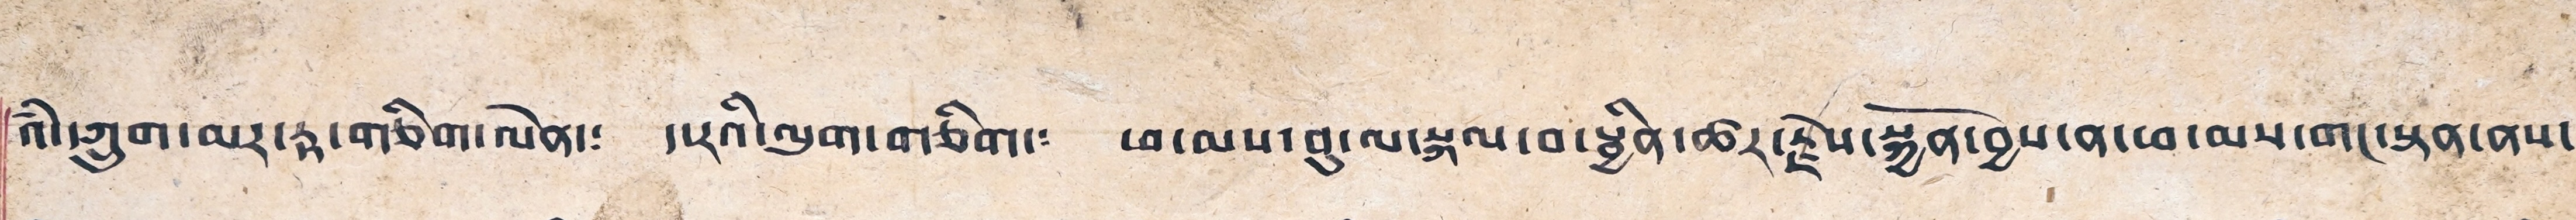འཾ་ཀྲུག་མར་རྟ་གཅིག་ལེན་༴ ད་རའི་ལུག་གཅིག་༴ ཕ་མས་བུ་ལ་སྐལ་བ་སྦྱིན་ཚར་རྗེས་སྐྱོན་བྱས་ན་ཕ་མས་གང་སྟན་ནས་
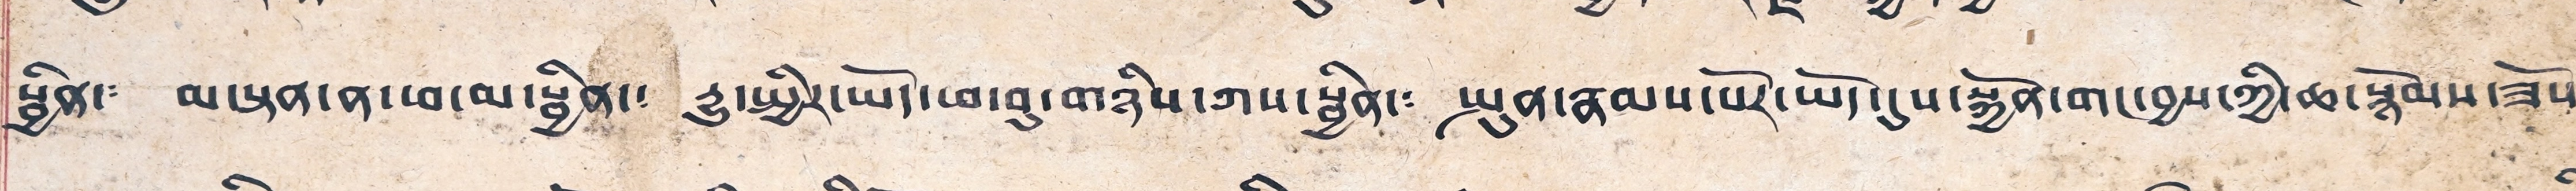སྦྱིན་༴ མ་སྟན་ན་ཕ་མ་སྦྱིན་༴ རྒྱུ་ཕྱིར་ཡོད་ཕ་བུ་གཉིས་ཀས་སྦྱིན་༴ སྤུན་རྣམས་པོར་ཡོད་དུས་སྐྱོན་གང་བྱས་ཀྱི་ཆ་སྙོམས་ཟོས་
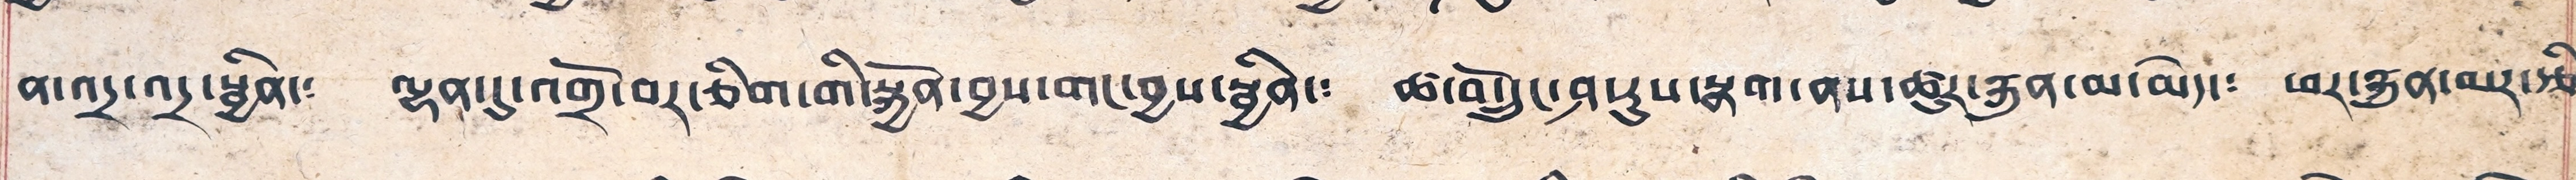ན་འདྲ་འདྲ་སྦྱིན་༴ ལྷན་དུ་འགྲོ་བར་ཅིག་གི་སྐྱོན་བྱས་གང་བྱས་སྦྱིན་༴ ཚ་བོ་དྲུང་ཤ་རུས་སྣག་ནས་ཚུར་རྐུན་མ་མེད་༴ ཕར་རྐུན་མར་རྩི༴
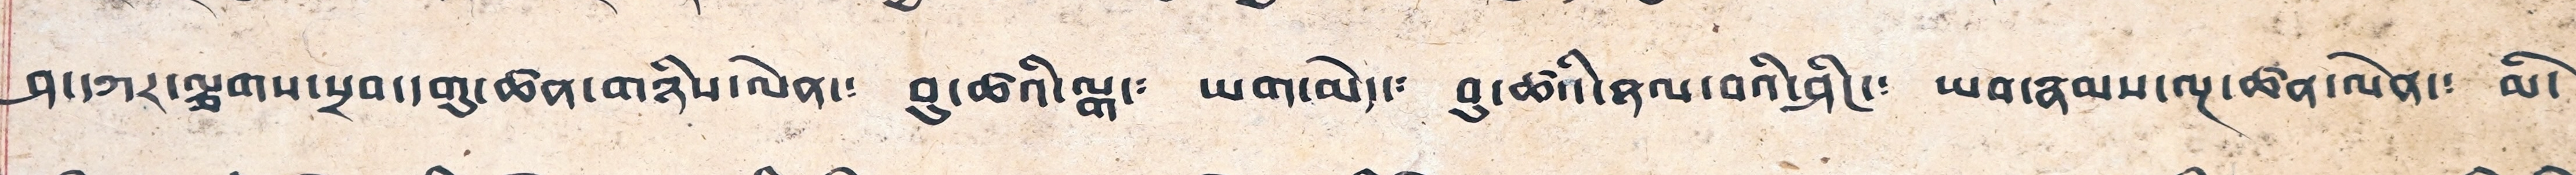ཤ་དཀར་ལྕགས་སྲབ་དགུ་ཚན་གཉིས་ལེན་༴ བུ་ཚའི་ལྒ་༴ ཡག་མེད་༴ བུ་ཚའི་ཉལ་བའི་ཤིང་༴ ཡབ་རྣམས་ལྔ་ཚན་ལེན་༴ མི་
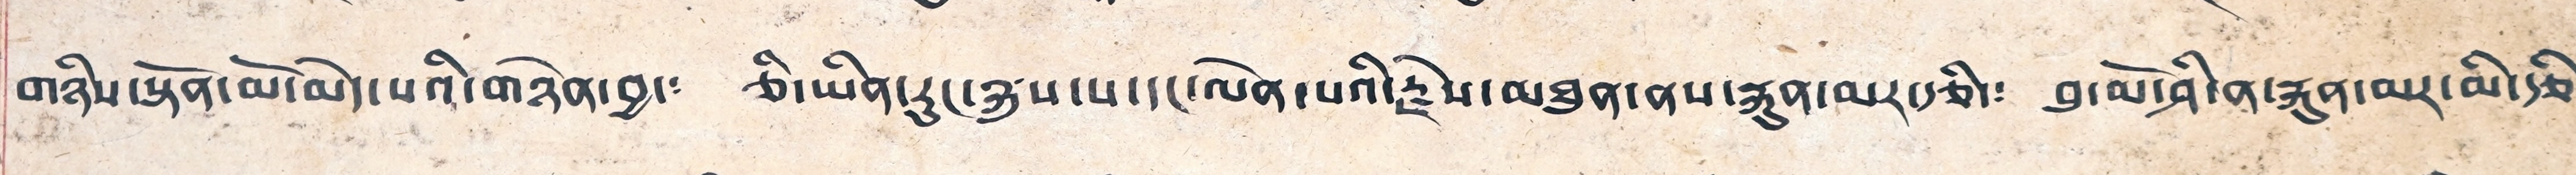གཉིས་སྟོན་མོ་མེད་པའི་གཉེན་བྱ་༴ ཅི་ཡིན་རུང་རྐུས་པ་དང་ལེན་པའི་རྗེས་མཐུན་ནས་རྐུན་མར་རྩི་༴ བུ་མོ་ཤི་ན་རྐུན་མར་མི་རྩི་
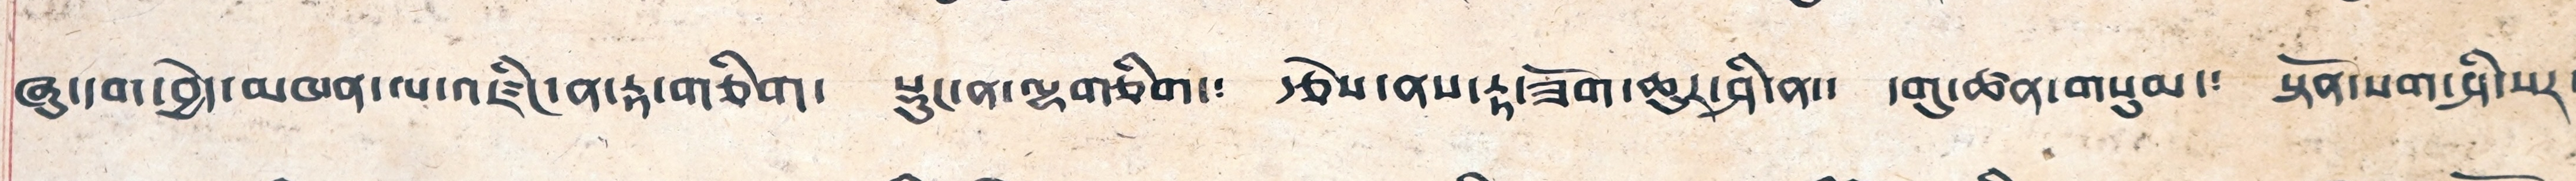ཞུ་དག་བྱེད་མཁན་ལ་འཛིང་ན་རྟ་གཅིག། སྟུང་ན་ལྷགཅིག་༴ རྩེས་ནས་རྟ་ཟོག་ཆུར་ཤི་ན་༴ དགུ་ཚན་གསུམ་༴ སྟོན་པག་ཤི་པར་
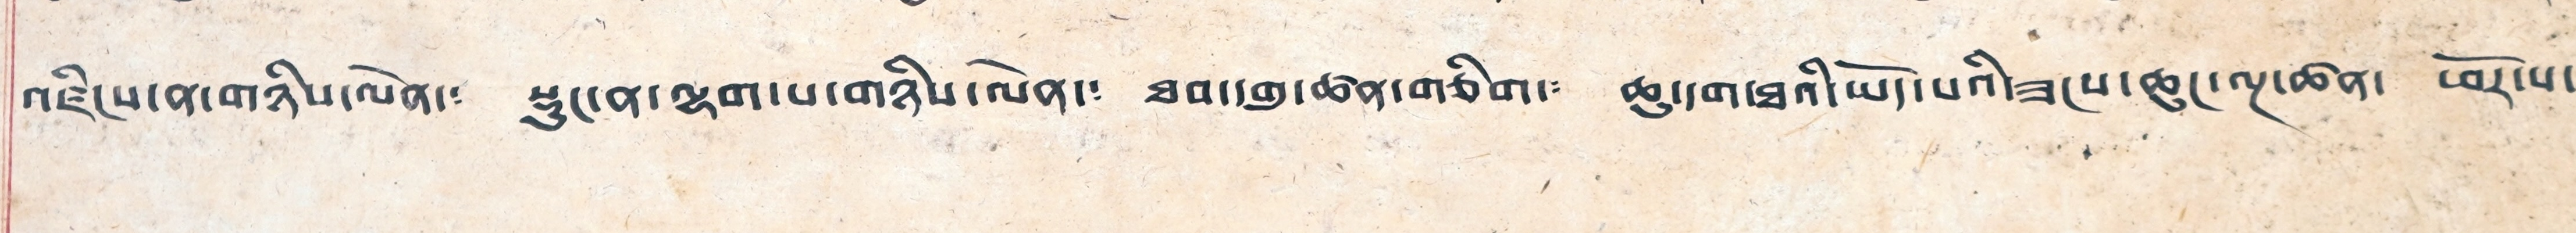འཛིངས་ན་གཉིས་ལེན་༴ སྟུང་ན་ལྷག་པ་གཉིས་ལེན་༴ ཐབ་དགུ་ཚན་གཅིག་༴ ཆུ་དག་ཐའི་ཡོད་པའི་ཟངས་ཆུང་ལྔ་ཚན་ ཕོར་པ་
